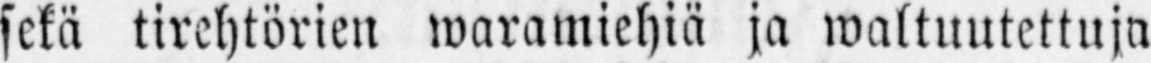sekä tirehtörien waramiehiä ja waltuutettuja
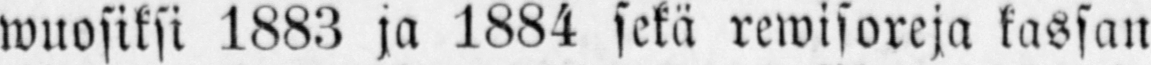wuosiksi 1883 ja 1884 sekä rewisoreja kassan
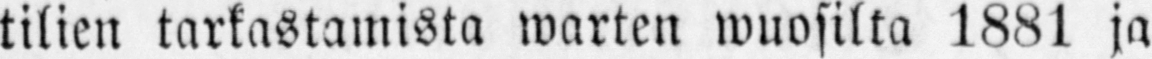tilien tarkastamista warten wuosilta 188l ja
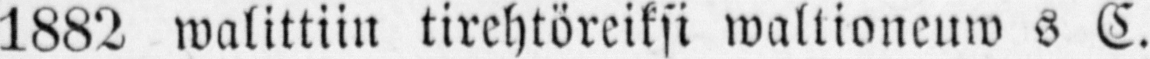1882 walittiin tirehtöreiksi waltioneuwos C.
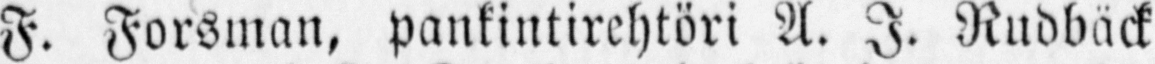F. Forsman, pankintirehtöri A. I. Rudbäck
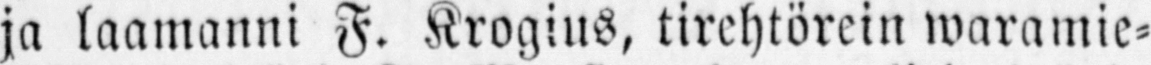ja laamanni F. Krogius, tirehtörein waramie-
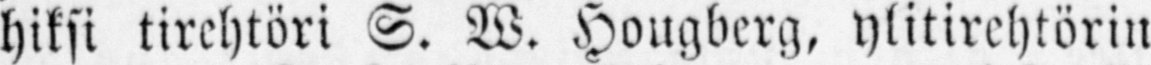hiksi tirehtöri S. W. Hougberg, ylitirehtörin
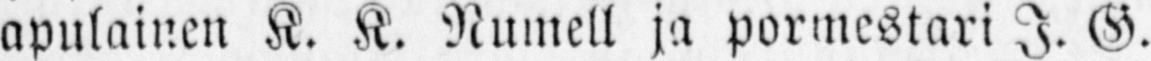apulainen K. K. Numell ja pormestari I. G.
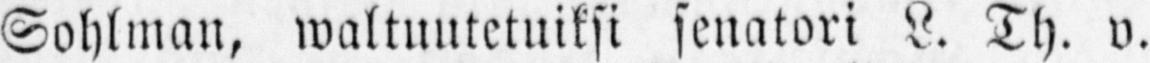Sohlman, waltuutetuiksi senatori L. Th. v.
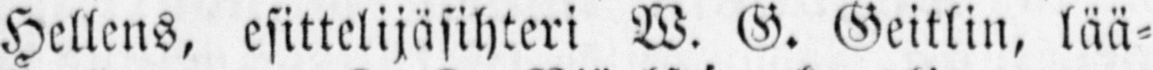Hellens, esittelijäsihteri W. G. Geitlin, lää-
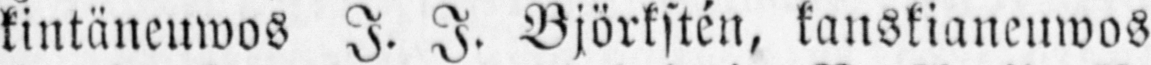kintäneuwos I. I. Björkstéin, kanskianeuwos
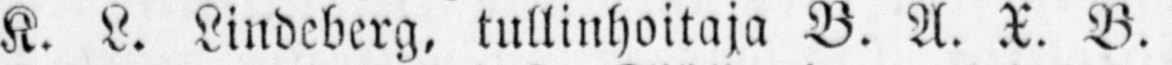K. L. Lindeberg, tullinhoitaja B. A. X. B
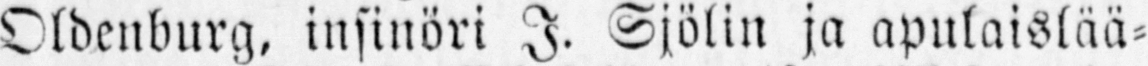Oldenburg, insinöri I. Sjölin ja apulaislää-
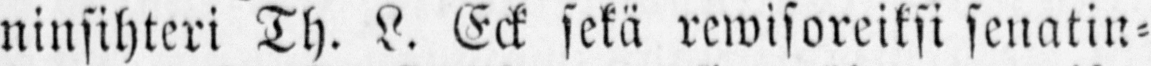ninsihteri Th. L. Eck sekä rewisoreiksi senatin-
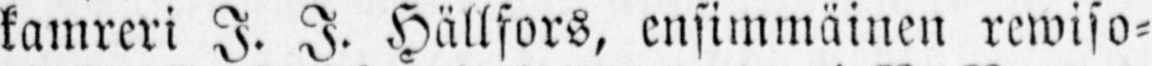kamreri I. I. Hällfors, ensimmäinen rewiso-
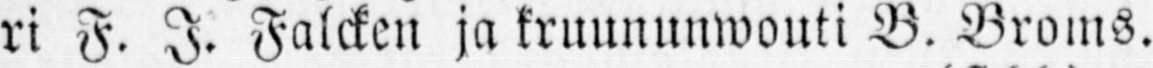ri F. I. Falcken ja kruununwouti B. Broms.
